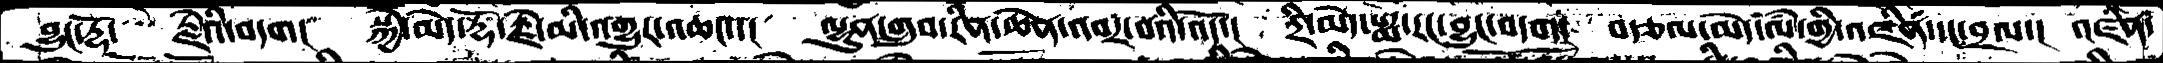བྱུང་རྡོ་   རྗེའི་བདག།   སྐྱེ་མེད་རྡོ་རྗེ་མི་འགྱུར་འཆང་་།  ལྷུན་གྲུབ་རིན་ཆེན་འབར་བའི་འོད་།  དྲི་མེད་པདྨ་རང་བྱུང་བདག།  བརྩལ་མེད་ལཾ་གྱི་འཛིན་དང་བྲལ་།  འཛིན་
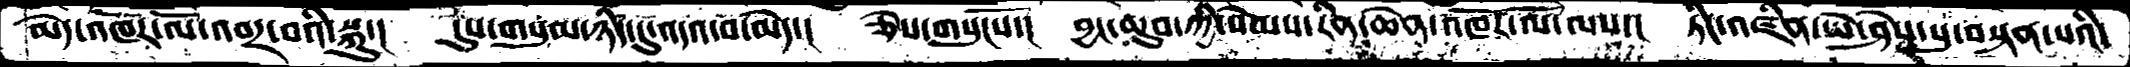མེད་འཁོར་ལོ་འབར་བའི་སྐུ་།  དུས་གསུམ་ཉིད་དུ་འདའ་བ་མེད་།  ཅེས་གསུངསོ་།  བྱང་ཆུབ་ཀྱི་སེམས་རིན་ཆེན་འཁོར་ལོ་ལས་།  ཏིང་འཛིན་ཡེ་ཤེས་སུ་བསྟན་པའི་
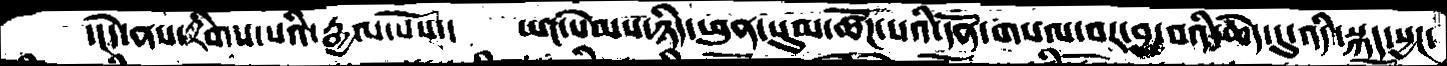་།དེ་ནས་རིགས་པའི་རྒྱལ་པོས་།   ཡང་སེམས་ཉིད་ཕུན་སུམ་ཚོཌ་པའི་དོན་གསལ་བར་བྱ་བའི་ཆེད་དུ་འདི་སྐད་སྱང་
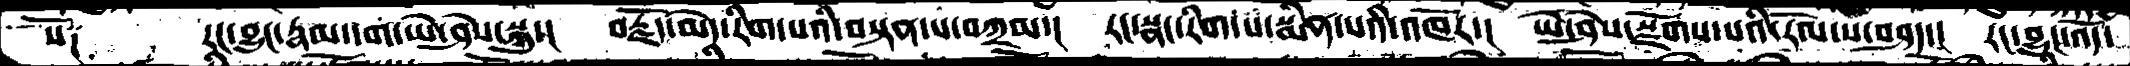སོ༑     རང་བྱུང་རྣམ་དག་ཡེ་ཤེས་སྐུ་།   བརྗོད་མེད་རིག་པའི་བསྟན་པ་བཀྲམ་།   རང་སྣང་རིག་པ་སྨིན་པའི་འཁོར་།  ཡེ་ཤེས་སྫོགས་པའི་རོལ་པ་བཤད་།   རང་བྱུང་འོད་
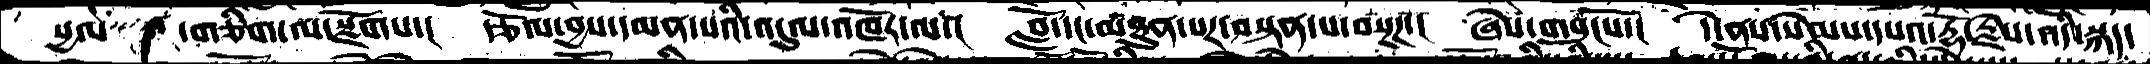སྱལ    ་གཅིག་ལ་སྫོགས་།   རྩོལ་བྱས་དམན་པའི་འདུལ་འཁོར་ལ་།    བློ་དང་མཐུན་པར་བསྟན་པ་བསྔཌ་།   ཞེས་གསུངསོ་།    དེ་ནས་སེམས་དཔའ་རྡོ་རྗེས་འདི་སྐད་
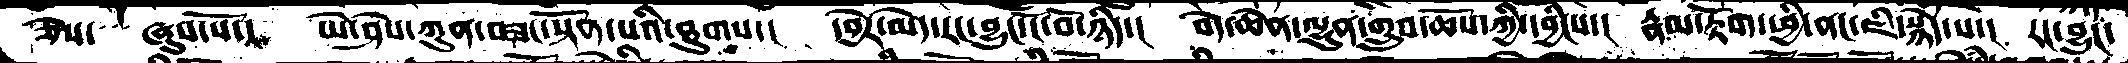ཅེས་   ཞུས་སོ་།   ཡེ་ཤེས་ཀུན་བཟང་སྟོན་པའི་ཐུགས་།    དབྱེར་མེད་རང་བྱུང་ངོ་བོ་ཉིད་།   བདེ་ཆེན་ལྷུན་གྲུབ་ཆོས་ཀྱི་དབྱིངས་།  རྣམ་རྟོག་ཕྱི་ནང་ཇི་སྙེད་པ་།   རང་བྱུང་
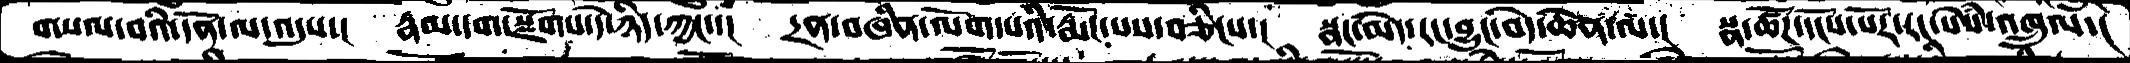གསལ་བའི་དོན་ལ་འདུས་།   རྣམ་དག་སྫོགས་དེ་ཉིད་ཀྱང་་།   དྲན་བཞིན་ལོག་པའི་རྨོང་པས་བཅིངས་།   སྣང་མེད་རང་བྱུང་བདེ་ཆེན་ལ་།   སྣ་ཚོཌ་དངོས་པོར་རང་སེསཾ་འཁྲུལ་།
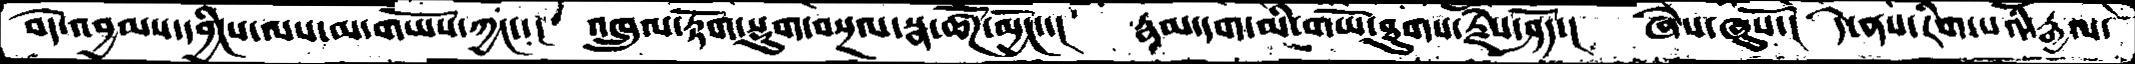བདེ་འབྱམས་དབྱིངས་ལས་མ་གཡོས་ཀྱང་་།   འཁྲུལ་རྟོག་སྡུག་བསྔལ་སྣ་ཚོཌ་མྱོང་་།  རྣམ་དག་མི་གཡོ་ཐུགས་རྗེས་ཤོད་།   ཞེས་ཞུསོ་།  དེ་ནས་རིག་པའི་རྒྱལ་
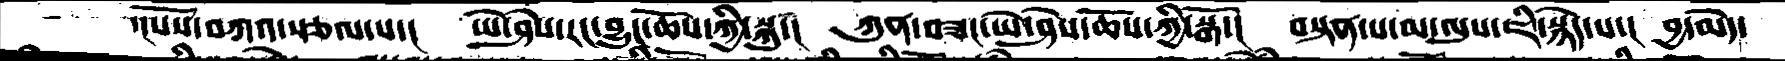་།པོས་བཀའ་སྩལ་པ་།  ཡེ་ཤེས་རང་བྱུང་ཆོས་ཀྱི་སྐུ་།  ཀུན་བཟང་ཡེ་ཤེས་ཆོས་ཀྱི་སྒོ་།  བསྟན་པ་མ་ལུས་ཇི་སྙེད་པ་།  བྱ་མེད་
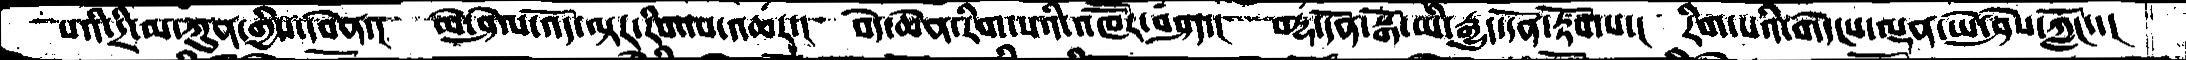པའི་དྲི་མ་ཀུན་གྱིས་དབེན་།  ཡེ་ཤེས་འོད་ལྟར་རིག་པ་འཆར་།  བདེ་ཆེན་རིག་པའི་འཁཽར་བཤད་།  བརྡ་དོན་སྒོ་ཡི་རྒྱུད་དོན་རྟོགས་།  རིག་པའི་གདེངས་ལྡན་ཡེ་ཤེས་ཀློང་་།
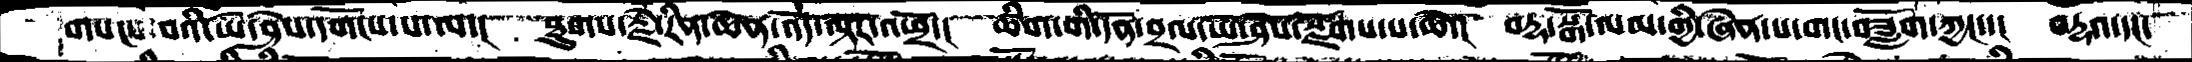གསངས་བའི་ཡེ་ཤེས་དགོངས་པ་ལ་།  ཐུགས་རྗེ་རིན་ཆེན་འོད་ལྟར་འཕྲོ་།   ཚིག་གི་དོན་བྲལ་ཡེ་ཤེས་སྫོགས་པ་ཆེ་།  བརྡ་སྒོ་ལམ་གྱི་ཞེན་པ་གང་བཟློག་ཀྱང་་།  བརྡའ་དང་
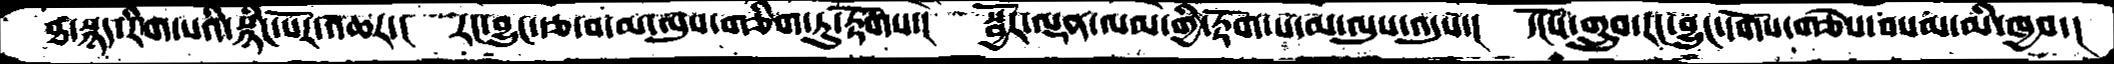ཐ་སྙད་རིག་པའི་སྙིང་པོར་འཆར་།  རང་བྱུང་རྩ་བ་མ་ལུས་གཅིག་ཏུ་རྟོགས་།  སྦྱོར་ལྡན་ནམ་གྱི་རྟོག་པ་མ་ལུས་འདུས་།  དངོས་གྲུབ་རང་བྱུང་དགོས་གཅེས་བསམ་མི་ཁྱབ་།
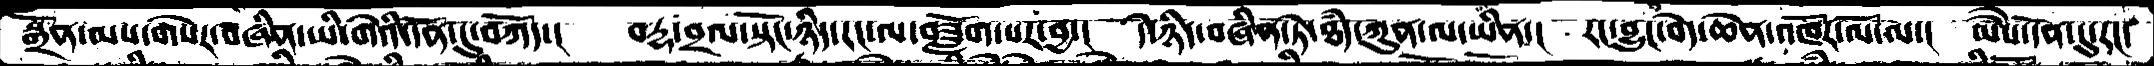སྒྲོན་མས་གསེར་བཞིན་ཡི་གེའི་དོན་དུ་བཀོད་།  བརྡ་བྲལ་སྟོང་ཉིད་རང་ལ་བཟློག་པར་བྱ་།  དེ་ཉིད་བཞིན་ཏེ་ཐཾད་ཀུན་ལ་ཡིན་།  རང་བྱུང་བདེ་ཆེན་འཁོར་ལོ་ལ་།  ཡཻས་དོན་དུ་རང་
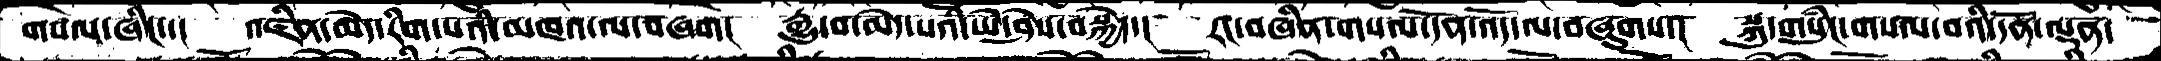གསལ་ཞིང་་།  འཛིན་མེད་རིག་པའི་མཁའ་ལ་བཞག།   རྒྱུ་བ་མེད་པའི་ཡེ་ཤེས་བསྐྱེད་།  རང་བཞིན་གསལ་དོན་འོད་ལ་བཞུགས་།   སྐུ་གསུཾང་གསལ་བའི་དོན་ལྡན་
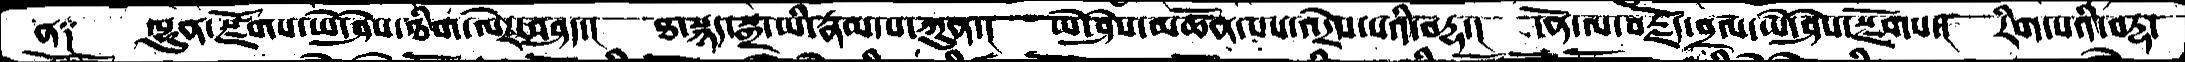ན༑    ལྷུན་སྫོགས་ཡེ་ཤེས་ཐིག་ལེར་བཤད་།  ཐ་སྙད་སྒྲ་ཡི་རྣམ་པ་ཀུན་།  ཡེ་ཤེས་མཚོན་པས་འདྲེས་པའི་བརྡ་།  དོན་ལ་བརྗོད་བྲལ་ཡེ་ཤེས་སྫོགས་།  རིག་པའི་བརྡ་
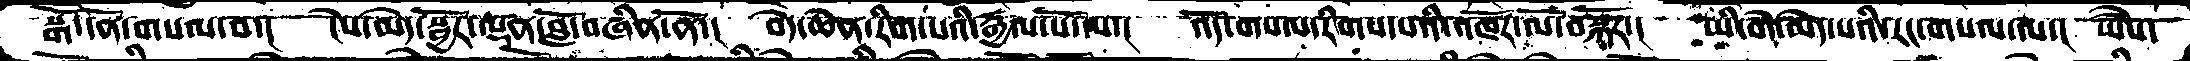སྒོ་དོན་གསལ་བ་།   ངེས་མེད་སྦྱོར་ལྡན་བློ་བཞིན་ནོ་།  བདེ་ཆེན་རིག་པའི་རྒྱལ་པོ་ལ་།   འོད་གསལ་རིགས་པའི་འཁོར་ལོ་བསྐོར་།  ཡི་གེ་མེད་པའི་རང་གསལ་ལ་།  ཡཻས་
